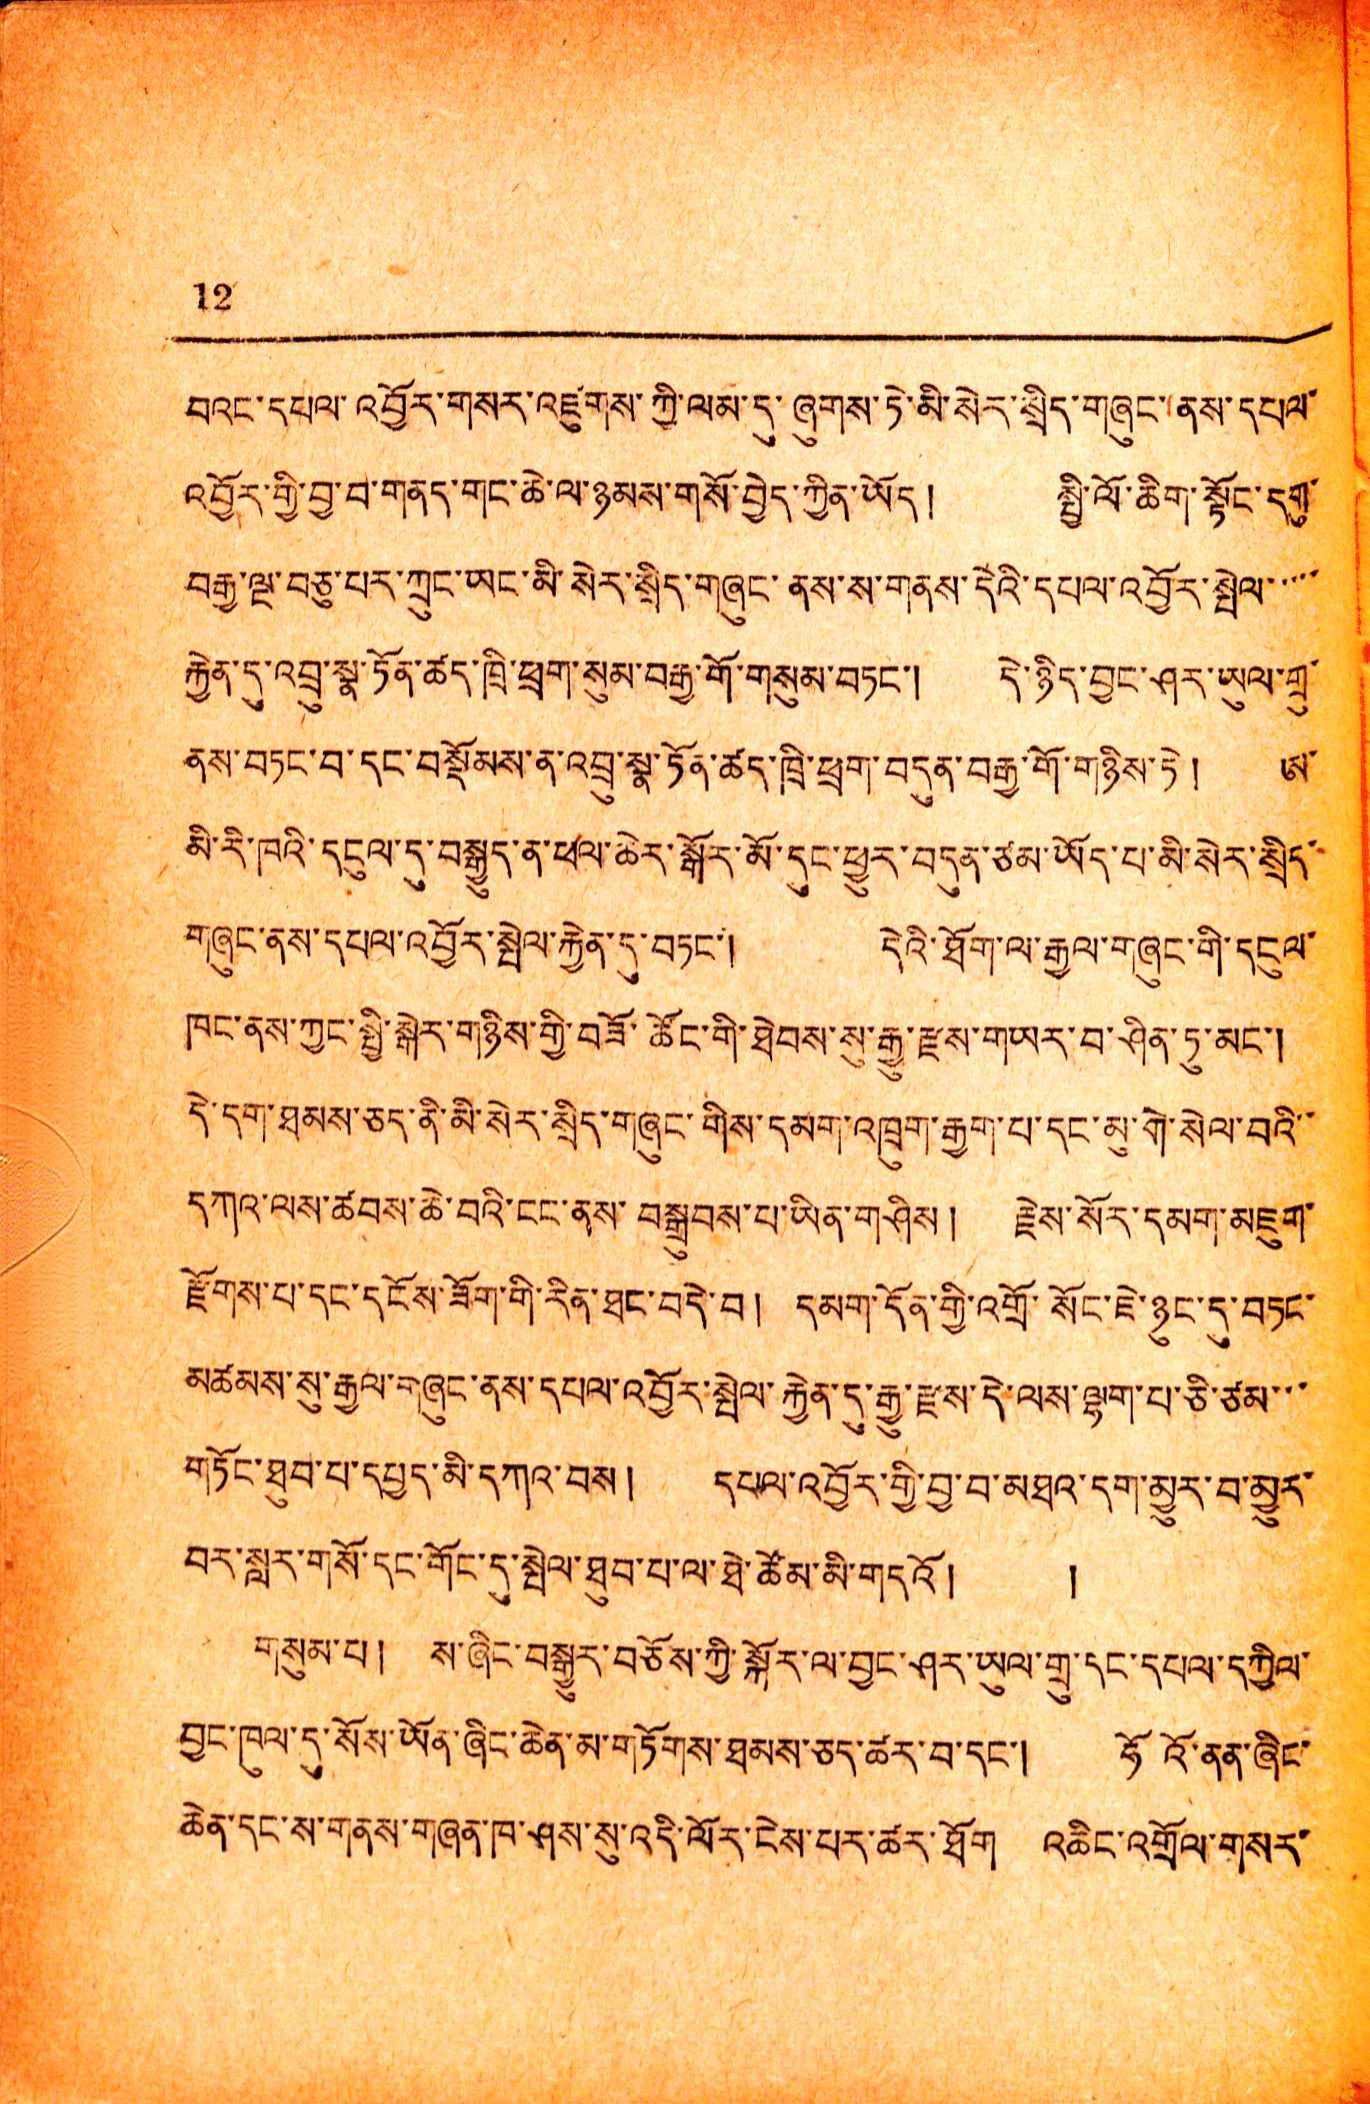12
བའང་དཔལ་འབྱོར་གསར་འཛུགས་ཀྱི་ལམ་དུ་ཞུགས་ཏེ་མི་སེར་སྲིད་གཞུང་ནས་དཔལ་
འབྱོར་གྱི་བྱ་བ་གནད་གང་ཆེ་ལ་ཉམས་གསོ་བྱེད་ཀྱིན་ཡོད། སྤྱི་ལོ་ཆིག་སྟོང་དགུ་
བརྒྱ་ལྔ་བཅུ་པར་ཀྲུང་ཡང་མི་སེར་སྲིད་གཞུང་ནས་ས་གནས་དེའི་དཔལ་འབྱོར་སྤེལ་་་་་
རྐྱེན་དུ་འབྲུ་སྣ་ཏོན་ཚད་ཁྲི་ཕྲག་སུམ་བརྒྱ་གོ་གསུམ་གཏང་། དེ་ཉིད་བྱང་ཤར་ཡུལ་གྲུ་
ནས་བཏང་བ་དང་བསྡོམས་ན་འབྲུ་སྣ་ཏོན་ཚད་ཁྲི་ཕྲག་བདུན་བརྒྱ་གོ་གཉིས་ཏེ། ཨ་
མི་རི་ཁའི་དངུལ་དུ་བསྒྱུད་ན་ཕལ་ཆེར་སྒོར་མོ་དུང་ཕྱུར་བདུན་ཙམ་ཡོད་པ་མི་སེར་སྲིད་
གཞུང་ནས་དཔལ་འབྱོར་སྤེལ་རྐྱེན་དུ་གཏང་། དེའི་ཐོག་ལ་རྒྱལ་གཞུང་གི་དངུལ་
ཁང་ནས་ཀྱང་སྤྱི་སྒེར་གཉིས་གྱི་བཟོ་ཚོང་གི་ཐེབས་སུ་རྒྱུ་རྫས་གཡར་བ་ཤིན་ཏུ་མང་།
དེ་དག་ཐམས་ཅད་ནི་མི་སེར་སྲིད་གཞུང་གིས་དམག་འཁྲུག་རྒྱག་པ་དང་མུ་གེ་སེལ་བའི་་
དཀའ་ལས་ཚབས་ཆེ་བའི་ངང་ནས་བསྒྲུབས་པ་ཡིན་གཤིས། རྗེས་སོར་དམག་མཇུག་
རྫོགས་པ་དང་དངོས་ཟོག་གི་རིན་ཐང་བདེ་བ། དམག་དོན་གྱི་འགྲོ་སོང་ཇི་ཉུང་དུ་བཏང་
མཚམས་སུ་རྒྱལ་གཞུང་ནས་དཔལ་འབྱོར་སྤེལ་རྐྱེན་དུ་རྒྱུ་རྫས་དེ་ལས་ལྷག་པ་ཅི་ཙམ་་་
གཏོང་ཐུབ་པ་དཔྱད་མི་དཀའ་བས། དཔལ་འབྱོར་གྱི་བྱ་བ་མཐའ་དག་མྱུར་བམྱུར་
བར་སླར་གསོ་དང་གོང་དུ་སྤེལ་ཐུབ་པ་ལ་ཐེ་ཚོམ་མི་གདའོ། །
གསུམ་པ། ས་ཞིང་བསྒྱུར་བཅོས་ཀྱི་སྐོར་ལ་བྱང་ཤར་ཡུལ་གྲུ་དང་དཔལ་དཀྱིལ་
བྱང་ཁུལ་དུ་སོས་ཡོན་ཞིང་ཆེན་མ་གཏོགས་ཐམས་ཅད་ཚར་བ་དང་། ཧོའོ་ནན་ཞིང་
ཆེན་དང་ས་གནས་གཞན་ཁ་ཤས་སུ་འདི་ལོར་ངེས་པར་ཚར་ཐོག འཆིང་འགྲོལ་གསར་
